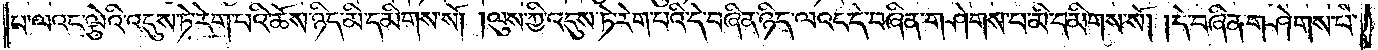པ་ལའང་ལྕེའི་འདུས་ཏེ་རེག་པའི་ཆོས་ཉིད་མི་དམིགས་སོ། །ལུས་ཀྱི་འདུས་ཏེ་རེག་པའི་དེ་བཞིན་ཉིད་ལའང་དེ་བཞིན་གཤེགས་པ་མི་དམིགས་སོ། །དེ་བཞིན་གཤེགས་པ་
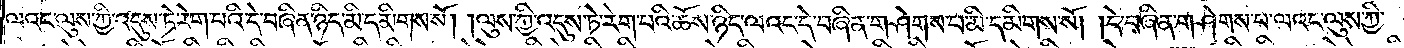ལའང་ལུས་ཀྱི་འདུས་ཏེ་རེག་པའི་དེ་བཞིན་ཉིད་མི་དམིགས་སོ། །ལུས་ཀྱི་འདུས་ཏེ་རེག་པའི་ཆོས་ཉིད་ལའང་དེ་བཞིན་གཤེགས་པ་མི་དམིགས་སོ། །དེ་བཞིན་གཤེགས་པ་ལའང་ལུས་ཀྱི་
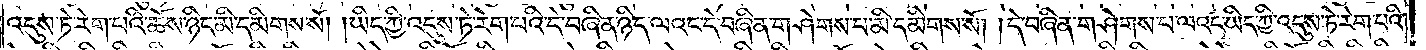འདུས་ཏེ་རེག་པའི་ཆོས་ཉིད་མི་དམིགས་སོ། །ཡིད་ཀྱི་འདུས་ཏེ་རེག་པའི་དེ་བཞིན་ཉིད་ལའང་དེ་བཞིན་གཤེགས་པ་མི་དམིགས་སོ། །དེ་བཞིན་གཤེགས་པ་ལའང་ཡིད་ཀྱི་འདུས་ཏེ་རེག་པའི་
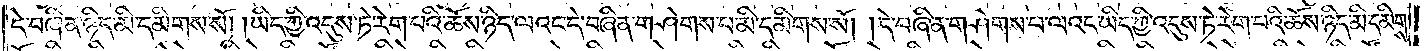དེ་བཞིན་ཉིད་མི་དམིགས་སོ། །ཡིད་ཀྱི་འདུས་ཏེ་རེག་པའི་ཆོས་ཉིད་ལའང་དེ་བཞིན་གཤེགས་པ་མི་དམིགས་སོ། །དེ་བཞིན་གཤེགས་པ་ལའང་ཡིད་ཀྱི་འདུས་ཏེ་རེག་པའི་ཆོས་ཉིད་མི་དམིགས་
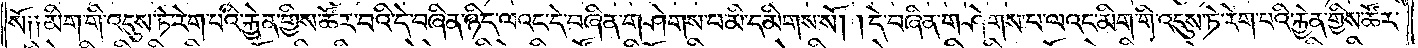སོ། །མིག་གི་འདུས་ཏེ་རེག་པའི་རྐྱེན་གྱིས་ཚོར་བའི་དེ་བཞིན་ཉིད་ལའང་དེ་བཞིན་གཤེགས་པ་མི་དམིགས་སོ། །དེ་བཞིན་གཤེགས་པ་ལའང་མིག་གི་འདུས་ཏེ་རེག་པའི་རྐྱེན་གྱིས་ཚོར་
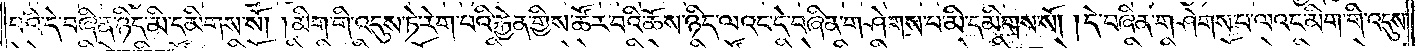བའི་དེ་བཞིན་ཉིད་མི་དམིགས་སོ། །མིག་གི་འདུས་ཏེ་རེག་པའི་རྐྱེན་གྱིས་ཚོར་བའི་ཆོས་ཉིད་ལའང་དེ་བཞིན་གཤེགས་པ་མི་དམིགས་སོ། །དེ་བཞིན་གཤེགས་པ་ལའང་མིག་གི་འདུས་
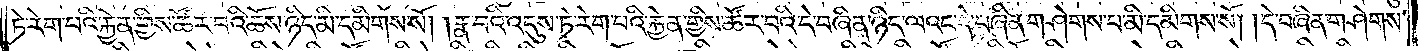ཏེ་རེག་པའི་རྐྱེན་གྱིས་ཚོར་བའི་ཆོས་ཉིད་མི་དམིགས་སོ། །རྣ་བའི་འདུས་ཏེ་རེག་པའི་རྐྱེན་གྱིས་ཚོར་བའི་དེ་བཞིན་ཉིད་ལའང་དེ་བཞིན་གཤེགས་པ་མི་དམིགས་སོ། །དེ་བཞིན་གཤེགས་
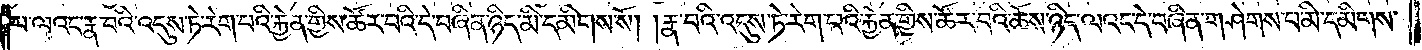པ་ལའང་རྣ་བའི་འདུས་ཏེ་རེག་པའི་རྐྱེན་གྱིས་ཚོར་བའི་དེ་བཞིན་ཉིད་མི་དམིགས་སོ། །རྣ་བའི་འདུས་ཏེ་རེག་པའི་རྐྱེན་གྱིས་ཚོར་བའི་ཆོས་ཉིད་ལའང་དེ་བཞིན་གཤེགས་པ་མི་དམིགས་
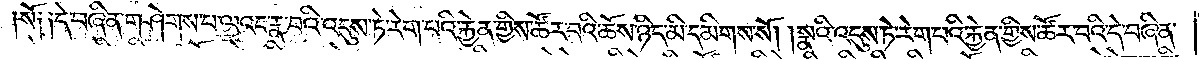སོ༏ ༏དེ་བཞིན་གཤེགས་པ་ལའང་རྣ་བའི་འདུས་ཏེ་རེག་པའི་རྐྱེན་གྱིས་ཚོར་བའི་ཆོས་ཉིད་མི་དམིགས་སོ། །སྣའི་འདུས་ཏེ་རེག་པའི་རྐྱེན་གྱིས་ཚོར་བའི་དེ་བཞིན་
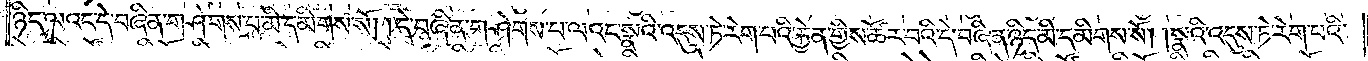ཉིད་ལའང་དེ་བཞིན་གཤེགས་པ་མི་དམིགས་སོ། །དེ་བཞིན་གཤེགས་པ་ལའང་སྣའི་འདུས་ཏེ་རེག་པའི་རྐྱེན་གྱིས་ཚོར་བའི་དེ་བཞིན་ཉིད་མི་དམིགས་སོ། །སྣའི་འདུས་ཏེ་རེག་པའི་
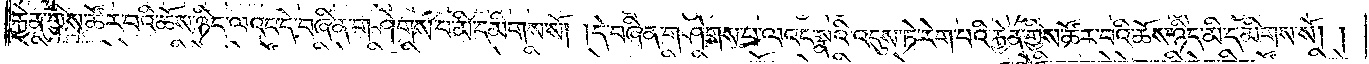རྐྱེན་གྱིས་ཚོར་བའི་ཆོས་ཉིད་ལའང་དེ་བཞིན་གཤེགས་པ་མི་དམིགས་སོ། །དེ་བཞིན་གཤེགས་པ་ལའང་སྣའི་འདུས་ཏེ་རེག་པའི་རྐྱེན་གྱིས་ཚོར་བའི་ཆོས་ཉིད་མི་དམིགས་སོ། །
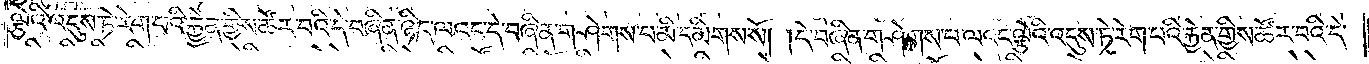ལྕེའི་འདུས་ཏེ་རེག་པའི་རྐྱེན་གྱིས་ཚོར་བའི་དེ་བཞིན་ཉིད་ལའང་དེ་བཞིན་གཤེགས་པ་མི་དམིགས་སོ། །དེ་བཞིན་གཤེགས་པ་ལའང་ལྕེའི་འདུས་ཏེ་རེག་པའི་རྐྱེན་གྱིས་ཚོར་བའི་དེ་
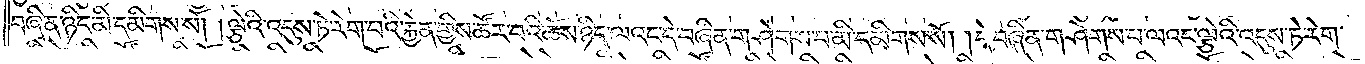བཞིན་ཉིད་མི་དམིགས་སོ། །ལྕེའི་འདུས་ཏེ་རེག་པའི་རྐྱེན་གྱིས་ཚོར་བའི་ཆོས་ཉིད་ལའང་དེ་བཞིན་གཤེགས་པ་མི་དམིགས་སོ། །དེ་བཞིན་གཤེགས་པ་ལའང་ལྕེའི་འདུས་ཏེ་རེག་
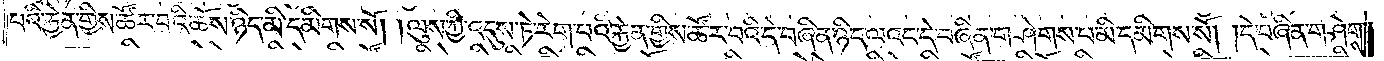པའི་རྐྱེན་གྱིས་ཚོར་བའི་ཆོས་ཉིད་མི་དམིགས་སོ། །ལུས་ཀྱི་འདུས་ཏེ་རེག་པའི་རྐྱེན་གྱིས་ཚོར་བའི་དེ་བཞིན་ཉིད་ལའང་དེ་བཞིན་གཤེགས་པ་མི་དམིགས་སོ། །དེ་བཞིན་གཤེགས་
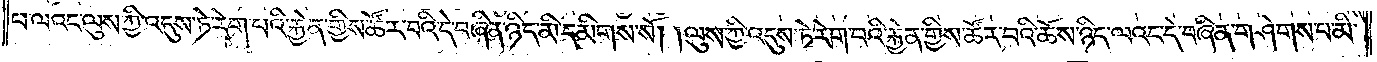པ་ལའང་ལུས་ཀྱི་འདུས་ཏེ་རེག་པའི་རྐྱེན་གྱིས་ཚོར་བའི་དེ་བཞིན་ཉིད་མི་དམིགས་སོ། །ལུས་ཀྱི་འདུས་ཏེ་རེག་པའི་རྐྱེན་གྱིས་ཚོར་བའི་ཆོས་ཉིད་ལའང་དེ་བཞིན་གཤེགས་པ་མི་
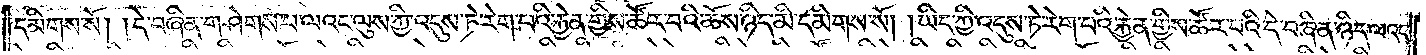དམིགས་སོ། །དེ་བཞིན་གཤེགས་པ་ལའང་ལུས་ཀྱི་འདུས་ཏེ་རེག་པའི་རྐྱེན་གྱིས་ཚོར་བའི་ཆོས་ཉིད་མི་དམིགས་སོ། །ཡིད་ཀྱི་འདུས་ཏེ་རེག་པའི་རྐྱེན་གྱིས་ཚོར་བའི་དེ་བཞིན་ཉིད་ལའང་
